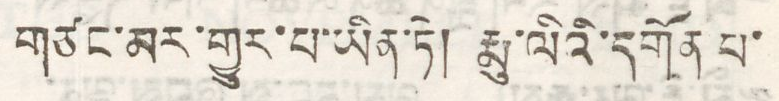གཙང་མར་གྱུར་པ་ཡིན་ཏེ། རྨུ་ལིའི་དགོན པ་
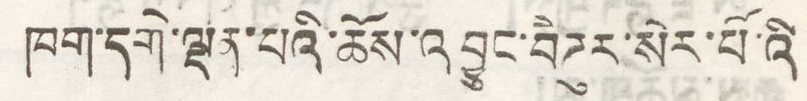ཁག་དགེ་ལྡན་པའི་ཆོས་འབྱུང་བེེཌུར་སེར་པོའི
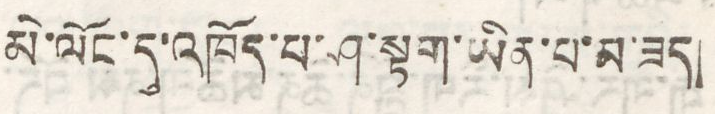མེ་ལོང་དུ་འཁོད་པ་ཤ་སྟག་ཡིན་པ་མ་ཟད།
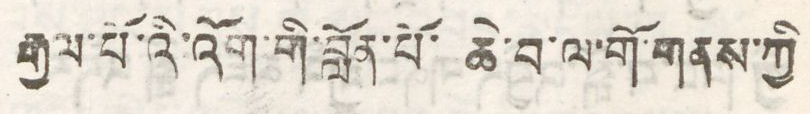རྒྱལ་པོའི་འོག་གི་བློན་པོ་ཆེ་བ་ལ་གོ་གནས་ཀྱི
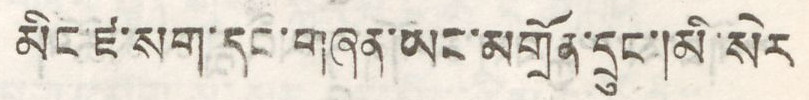མིང་ཛ་སག་དང་གཞན་ཡང་མགྲོན་དྲུང་།མི་སེར
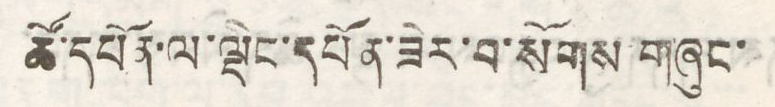ཚོ་དཔོན་ལ་ལྡིང་དཔོན་ཟེར་བ་སོགས་གཞུང་
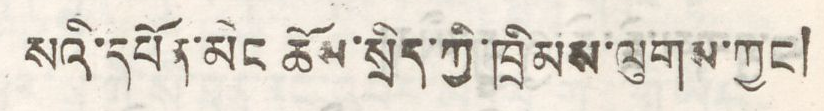སའི་དཔོན་མིང ཆོས་སྲིད་ཀྱི་ཁྲིམས་ལུགས་ཀྱང།
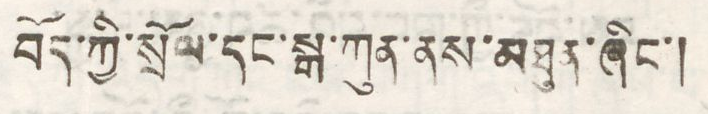བོད་ཀྱི་སྲོལ་དང་སྒ་ཀུན་ནས་མཐུན་ཞིང་།
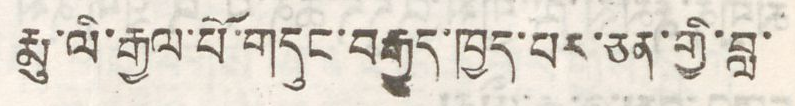རྨུ་ལི་རྒྱལ་པོ་གདུང་བརྒྱུད་ཁྱད་པར་ཅན་གྱི་བླ་
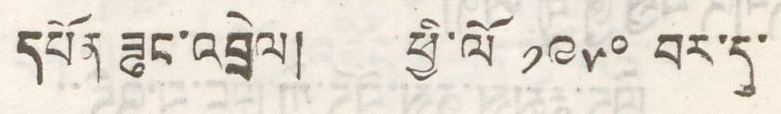དཔོན ཟུང་འབྲེལ། ཕྱི་ལོ ༡༩༥༠ བར་དུ་
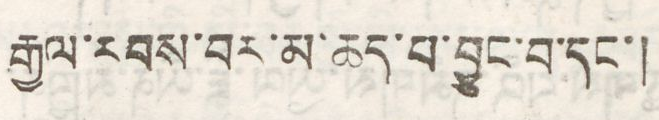རྒྱལ་རབས་བར་མ་ཆད་པ་བྱུང་བ་དང་།
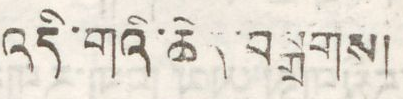འདི་གའི་ཆེན་བསྒྲགས།
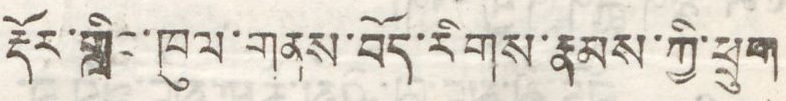རྡོར་གླིང་ཁུལ་གནས་བོད་རིགས་རྣམས་ཀྱི་ཕྲུག
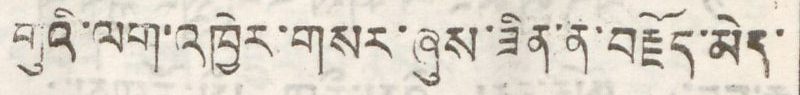གུའི་ལག་འཁྱེར་གསར་ཞུས་ཟིན་ན་བརྗོད་མེད་
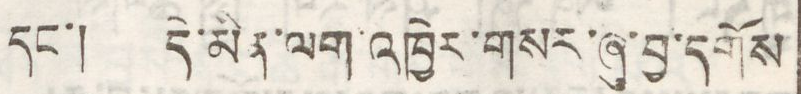དང་། དེ་མིན་ལག་འཁྱེར་གསར་ཞུ་བྱ་དགོས
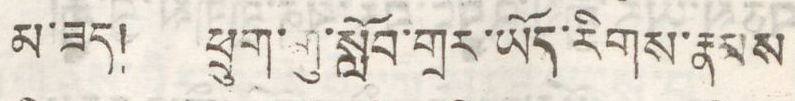མ་ཟད། ཕྲུག་གུ་སློབ་གྲར་ཡོད་རིགས་རྣམས
